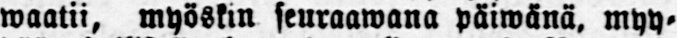waatii, myöskin seuraawana päiwänä, myy-
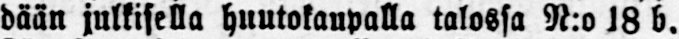dään julkisella huutokaupalla talossa N:o 18 b.
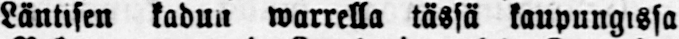Läntisen kadun warrella tässä kaupungissa
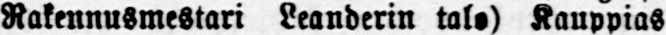(Rakennusmestari Leanderin talo) Kauppias
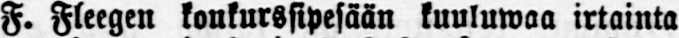F. Fleegen konkurssipesään kuuluwaa irtainta
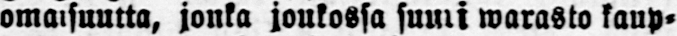omaisuutta, jonka joukossa suuri warasto kaup-
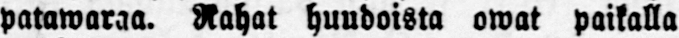patawaraa. Rahat huudoista owat paikalla
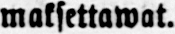maksettawat.
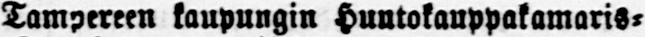Tampereen kaupungin Huutokauppakamaris-
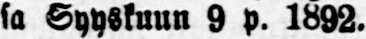sa Syyskuun 9 p. 1892.
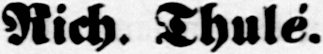Rich. Thulé.
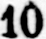10
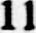11
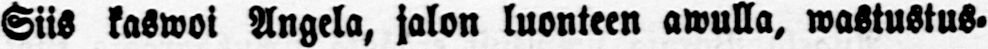Siis kaswoi Angela, jalon luonteen awulla, wastustus-
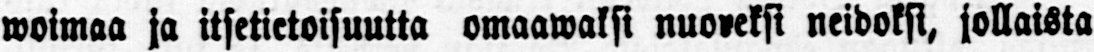woimaa ja itsetietoisuutta omaawaksi nuoreksi neidoksi, jollaista
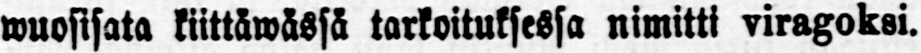wuosisata kiittäwässä tarkoituksessa nimitti viragoksi.
